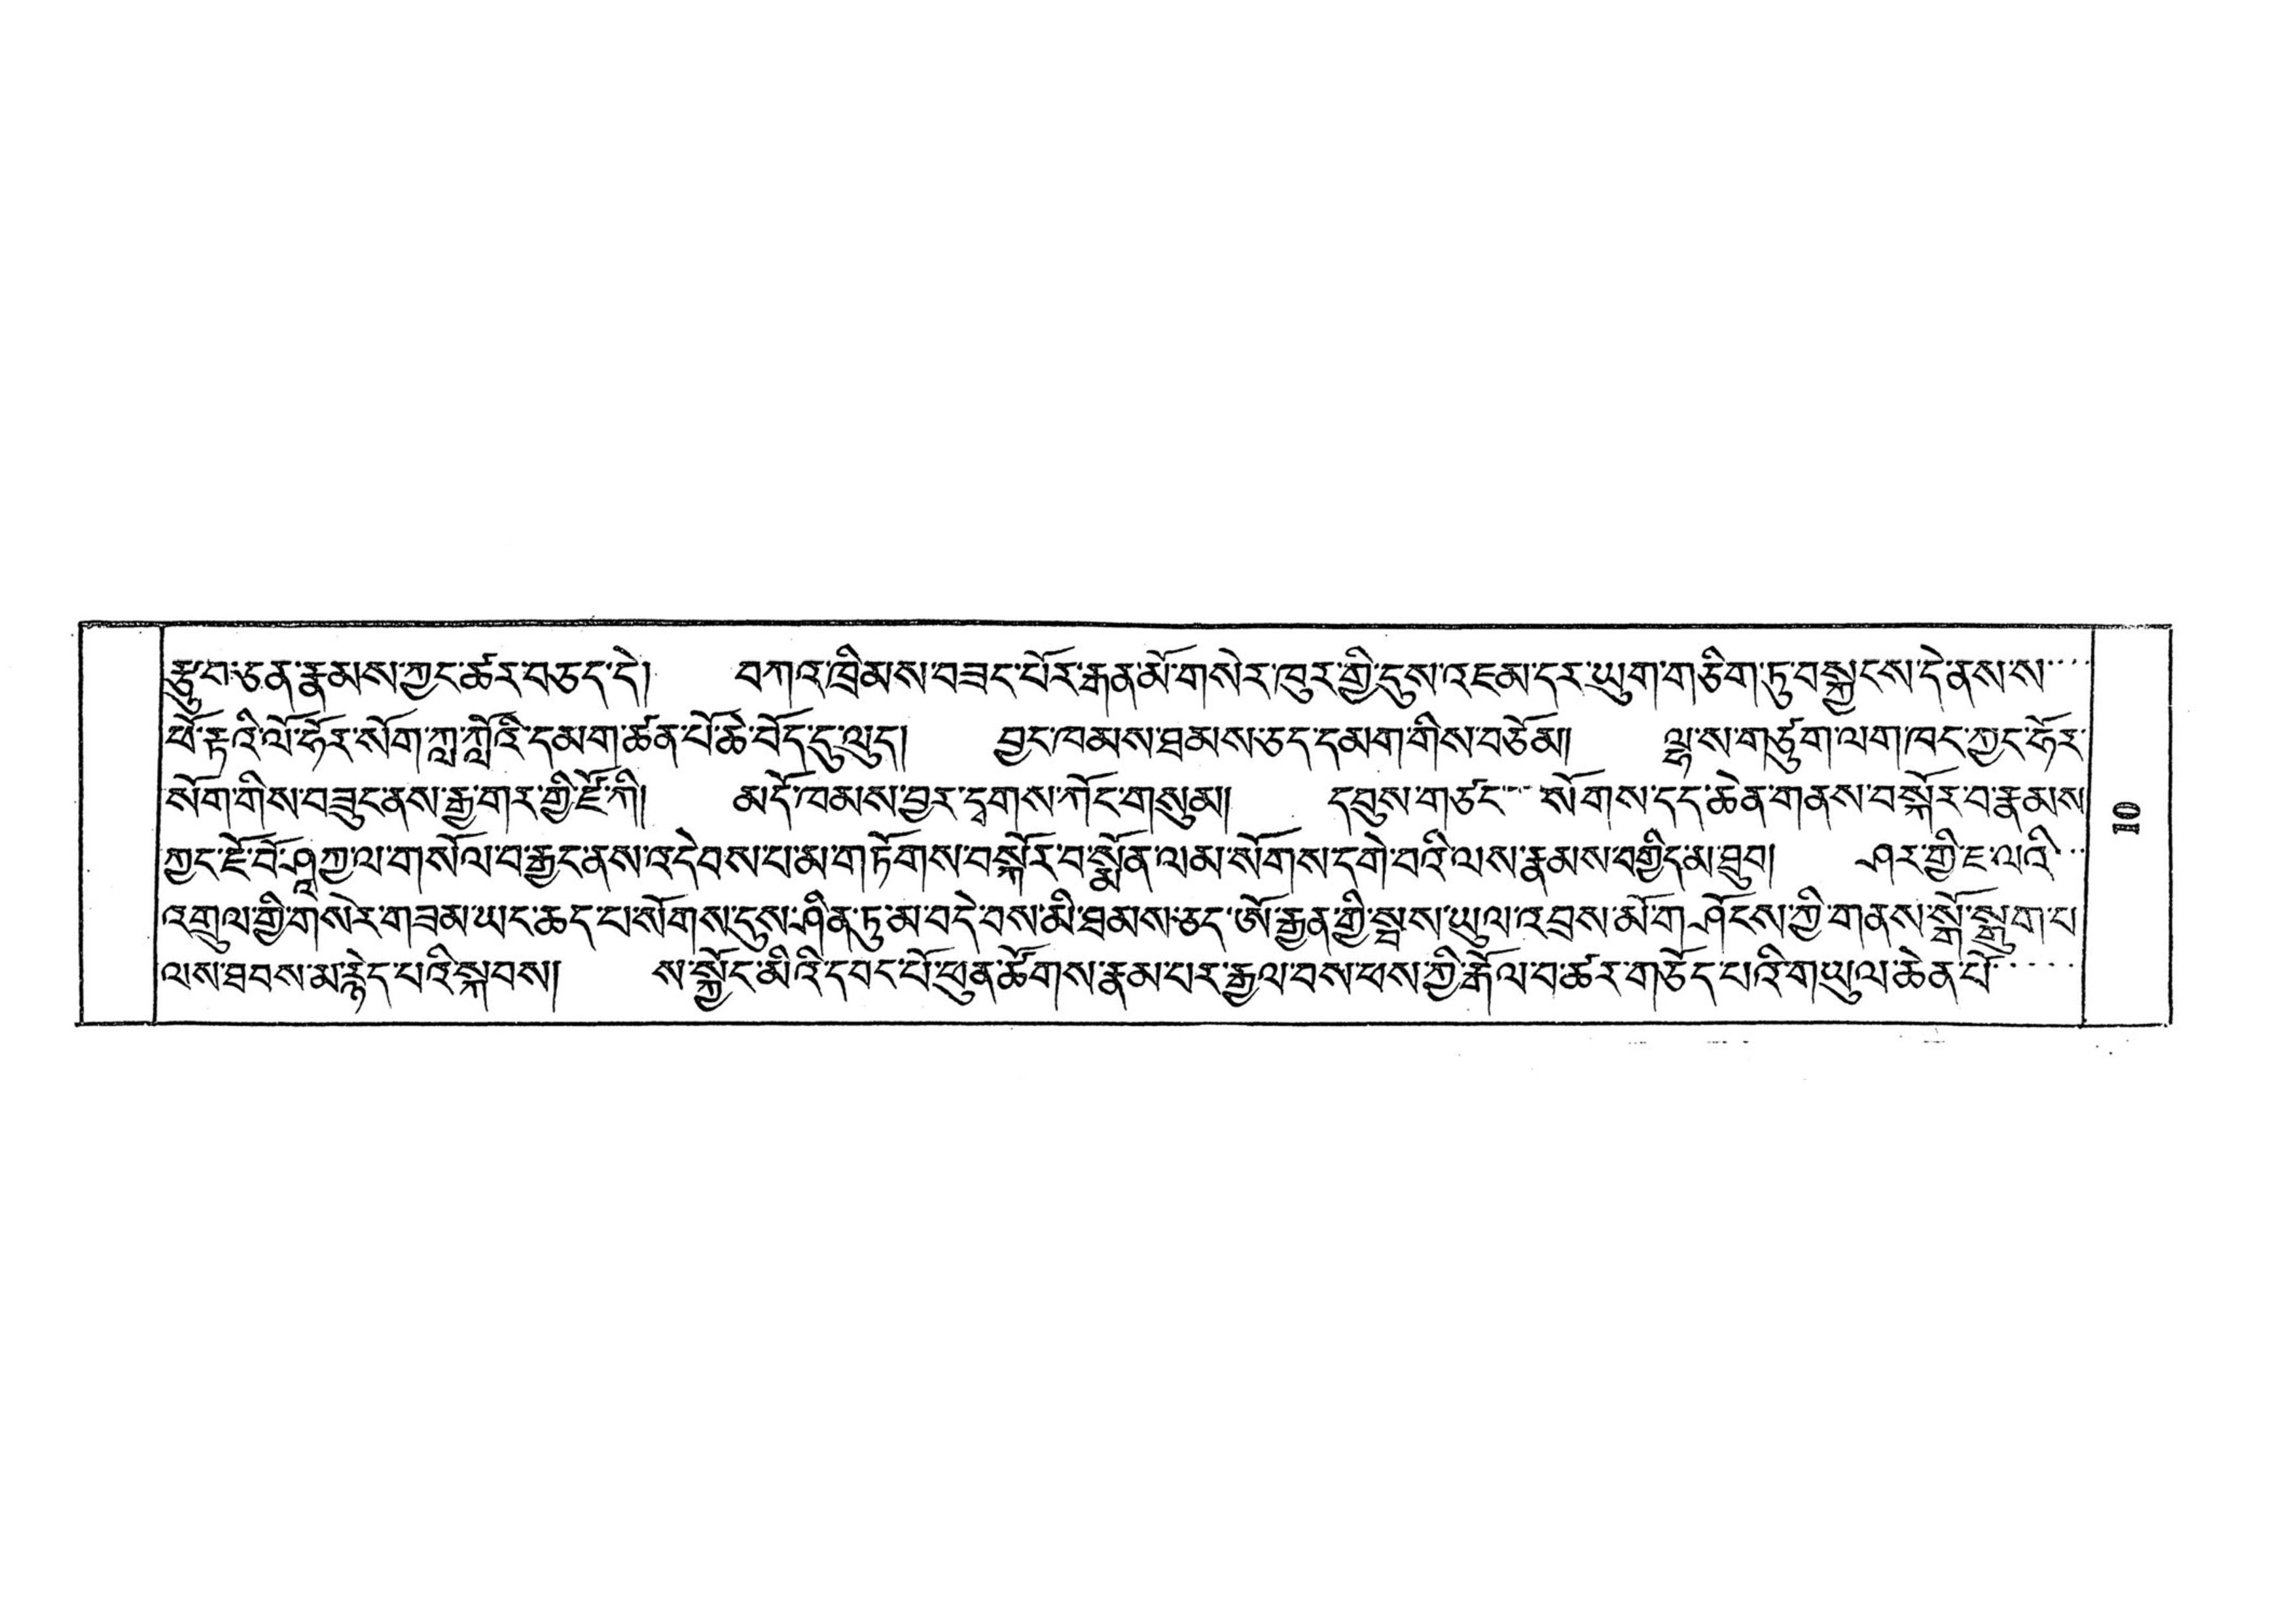རྩུབ་ཅན་རྣམས་ཀྱང་ཚར་བཅད་དེ། བཀའ་ཁྲིམས་བཟང་པོར་རྒན་མོ་གསེར་ཁུར་གྱི་དུས་འཇམ་དར་ཡུག་གཅིག་ཏུ་བསྐྱངས་དེ་ནས་ས་་་་
ཕོ་རྟའི་ལོ་ཧོར་སོག་ཀླ་ཀློའི་དམག་ཚན་པོ་ཆེ་བོད་དུ་ལུད། བྱང་ཁམས་ཐམས་ཅད་དམག་གིས་བཅོམ། ལྷ་ས་གཙུག་ལག་ཁང་ཀྱང་ཧོར་
སོག་གིས་བཟུང་ནས་རྒྱུ་གར་གྱི་ཛོ་ཀི། མདོ་ཁམས་བྱར་དྭགས་ཀོང་གསུམ། དབུས་གཙང་་་སོགས་དད་ཆེན་གནས་བསྐོར་བརྣམས་
ཀྱང་ཇོ་བོ་ཤཱཀྱ་ལ་གསོལ་བ་རྒྱང་ནས་འདེབས་པ་མ་གཏོགས་བསྐོར་བ་སྨོན་ལམ་སོགས་དགེ་བའི་ལས་རྣམས་བགྱིད་མ་ཐུབ། ཤར་གྱི་ཇ་ལའི་་་
འགྲུལ་གྱི་གསེར་གཟམ་ཡང་ཆད་པ་སོགས་དུས་ཤིན་ཏུ་མ་བདེ་བས་མི་ཐམས་ཅད་ཨོ་རྒྱན་གྱི་སྦས་ཡུལ་འབྲས་མོ་གཤོངས་ཀྱི་གནས་སྒོ་སྒུག་པ་
ལས་ཐབས་མ་རྙེད་པའི་སྐབས། ས་སྐྱོང་མིའི་དབང་པོ་ཕུན་ཚོགས་རྣམ་པར་རྒྱལ་བས་ཕས་ཀྱི་རྒོལ་བ་ཚར་གཅོད་པའི་གཡུལ་ཆེན་པོ་་་་
